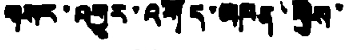གསར་འགྱུར་འགོད་མཁན་གྱིས་
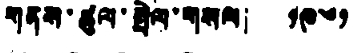གནས་ཚུལ་སྤེལ་གསལ། ༡༩༦༡
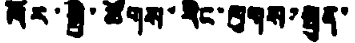ལོར་སྤྱི་ཚོགས་རིང་ལུགས་སྤུན་
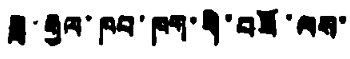ཟླ་རྒྱལ་ཁབ་ཁག་གི་བཟོ་ལས་
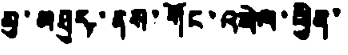མུ་མཐུད་ནས་གོང་འཕེལ་ཕྱིན་
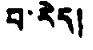པ་རེད།
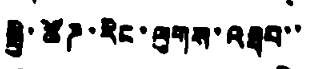སྤྱི་ཚོཌ་རིང་ལུགས་འཐབ་་
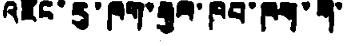འཛིང་རུ་ཁག་རྒྱལ་ཁབ་ཁག་གི་
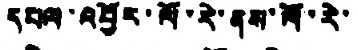དཔལ་འབྱོར་ལོ་རེ་ནས་ལོ་རེ་
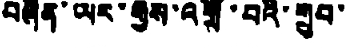བཞིན་ཡར་རྒྱས་འགྲོ་བའི་གྲུབ་
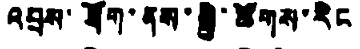འབྲས་ཐོག་ནས་སྤྱི་ཚོགས་རིང
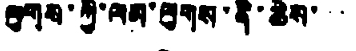ལུགས་ཀྱི་ལམ་ལུགས་ནི་ཆེས་་་
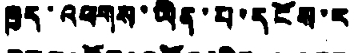ཁྱད་འཕགས་ཡིན་པ་དངོས་ར
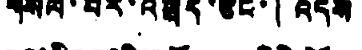གསལ་པོར་འཕྲོད་ཅིང་། འདས
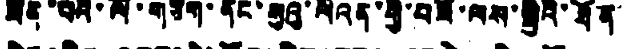ཟིན་པའི་ལོ་གཅིག་ནང་སུའུ་ལིའན་གྱི་བཟོ་ལས་སྤྱིའི་ཐོན
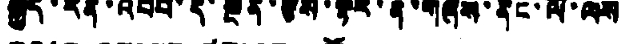སྐྱེད་རིན་འབབ་དེ་སྔོན་རྩིས་ལྟར་ན་གཞེས་ནིང་ལོ་ལས
